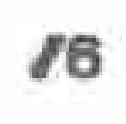18
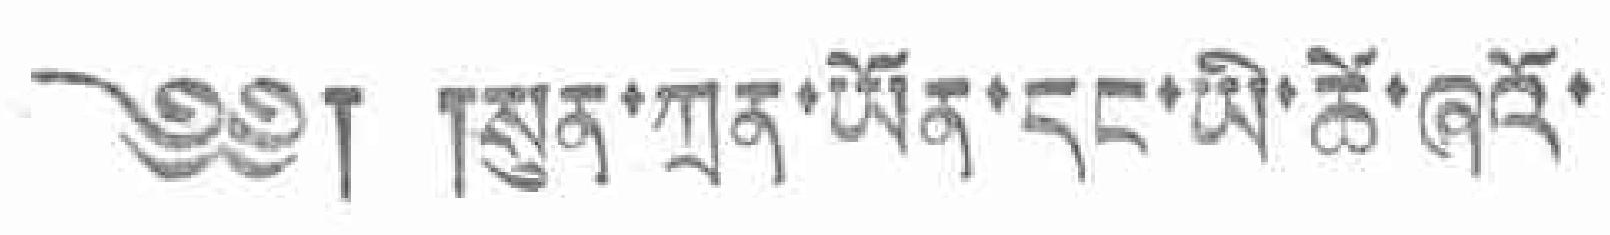༄༅། །སུན་ཀྲན་ཡོན་དང་ཡི་ཚེ་ཞའོ་
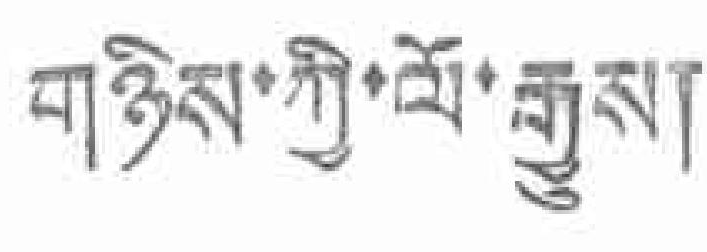གཉིས་ཀྱི་ལོ་རྒྱུས།
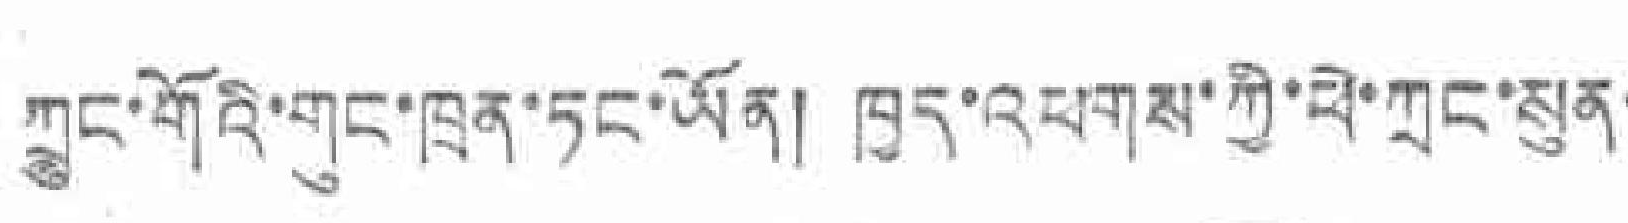ཀྲུང་གོའི་གུང་ཁྲན་ཏང་ཡོན། ཁྱད་འཕགས་ཀྱི་ཕེ་ཀྲང་སུན་
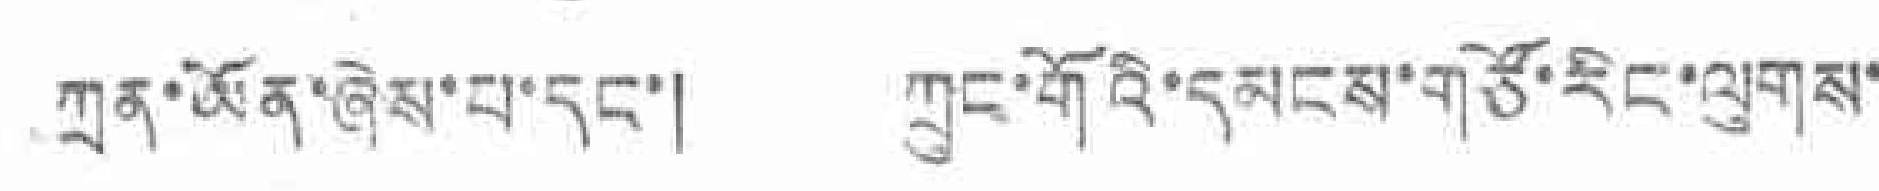ཀྲན་ཡོན་ཞེས་པ་དང་། ཀྲུང་གོའི་དམངས་གཙོ་རིང་ལུགས་
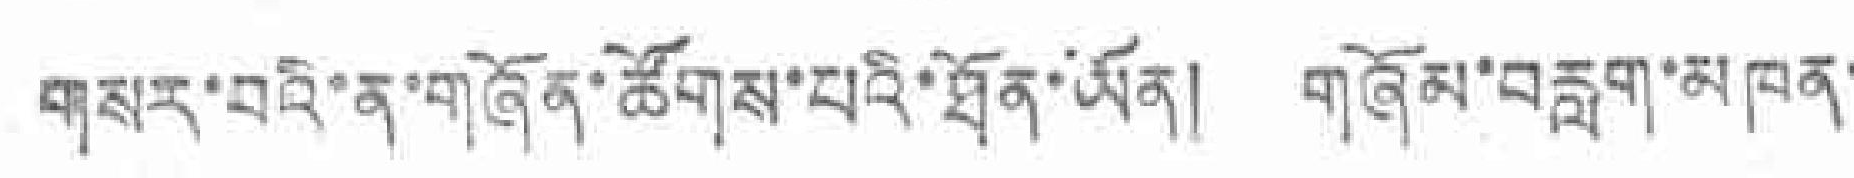གསར་བའི་ན་གཞོན་ཚོགས་པའི་ཐོན་ཡོན། གཞོམ་བརླག་མཁན་
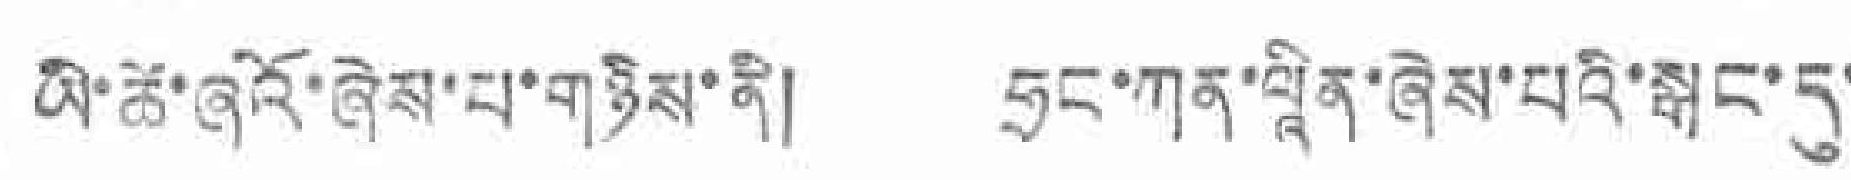ཡི་ཚེ་མའོ་ཞེས་པ་གཉིས་ནི། ཧྲང་ཀན་ལཱིན་ཞེས་པའི་སྒང་དུ་
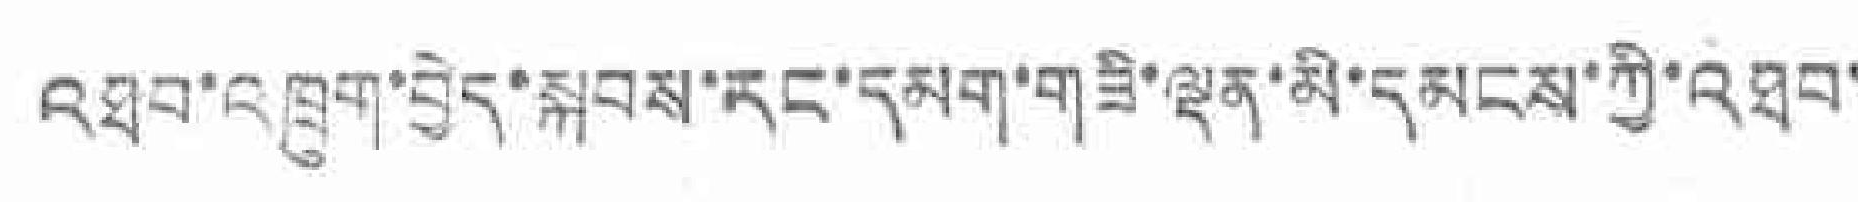འཐབ་འཁྲུག་བྱེད་སྐབས་དང་དམག་གཟི་ལྡན་མི་དམངས་ཀྱི་འཐབ་
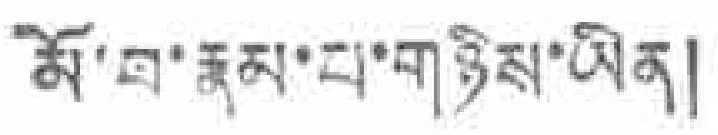མོ་བ་རྣམ་པ་གཉིས་ཡིན།
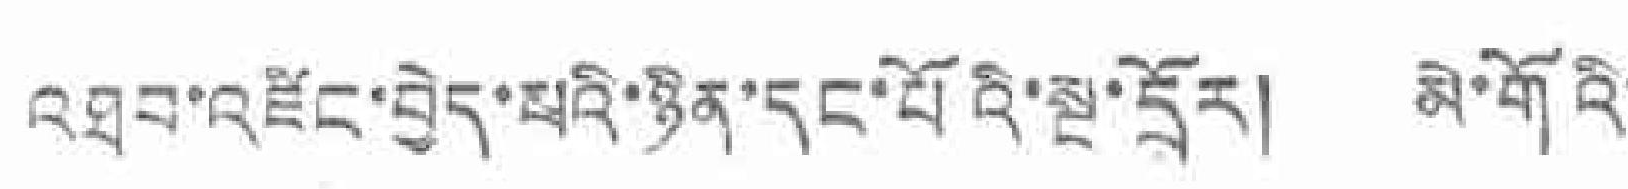འཐབ་འཛིང་བྱེད་པའི་ཉིན་དང་པོའི་སྔ་དྲོར། མེ་གོའི་
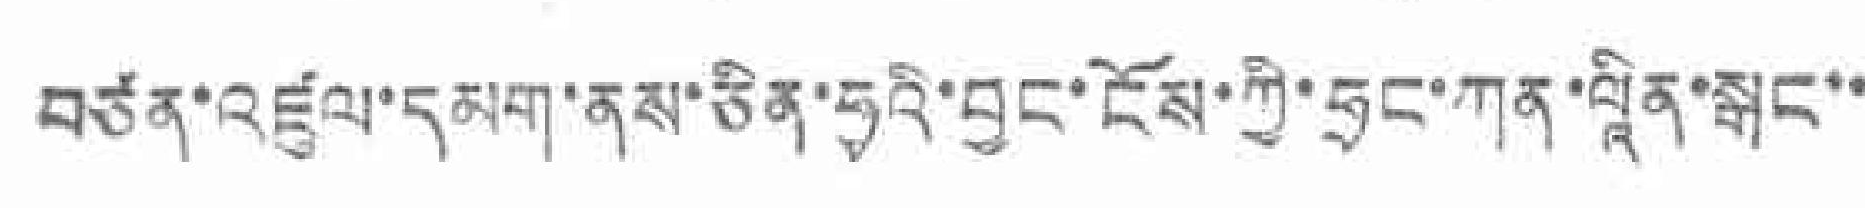བཙན་འཛུལ་དམག་ནས་ཅིན་ཧྭའི་བྱང་ངོས་ཀྱི་ཧྲང་ཀུན་ལཱིན་སྒང་་
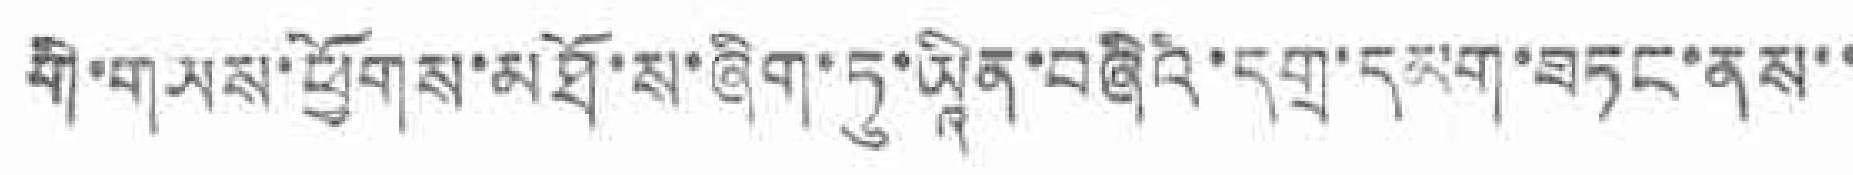རྒྱ་གཡས་ཕྱོགས་མཐོ་ས་ཞིག་ཏུ་ཡཱིན་བཞིའི་དགྲ་དམག་བཏང་ནས་་
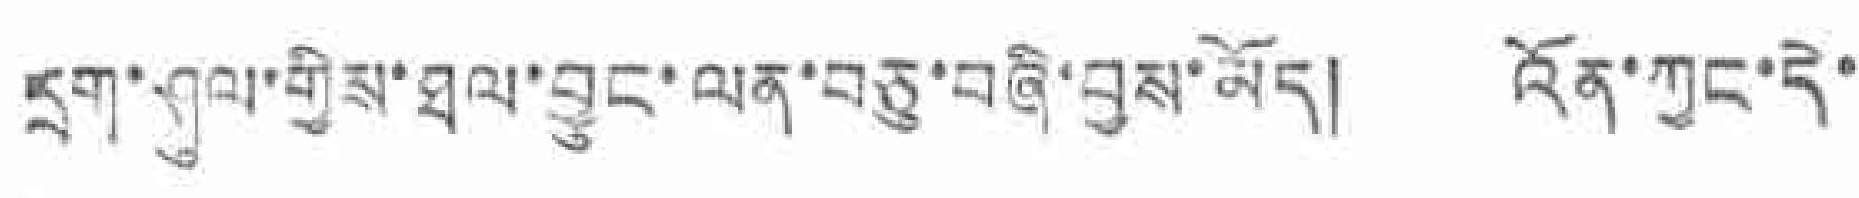དྲག་ཤུལ་གྱིས་ཐལ་བྱུང་ལན་བཅུ་བཞི་བྱས་མོད། འོན་ཀྱང་དེ་
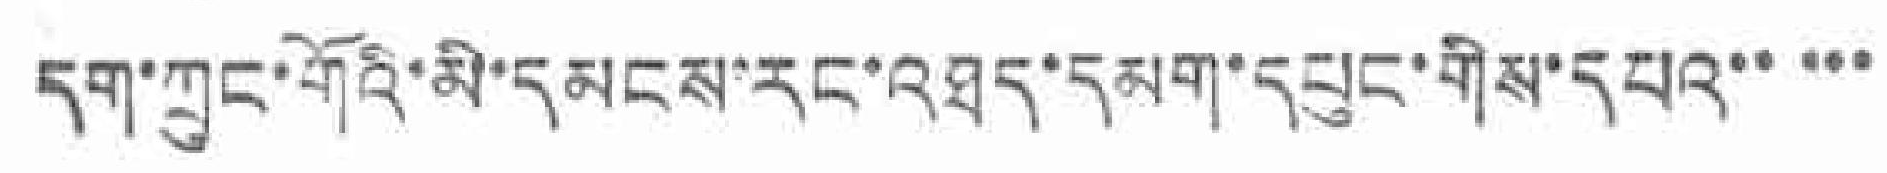དག་ཀྲུང་གོའི་མི་དམངས་རང་འཐད་དམག་དཔུང་གིས་དཔའ་་་་་
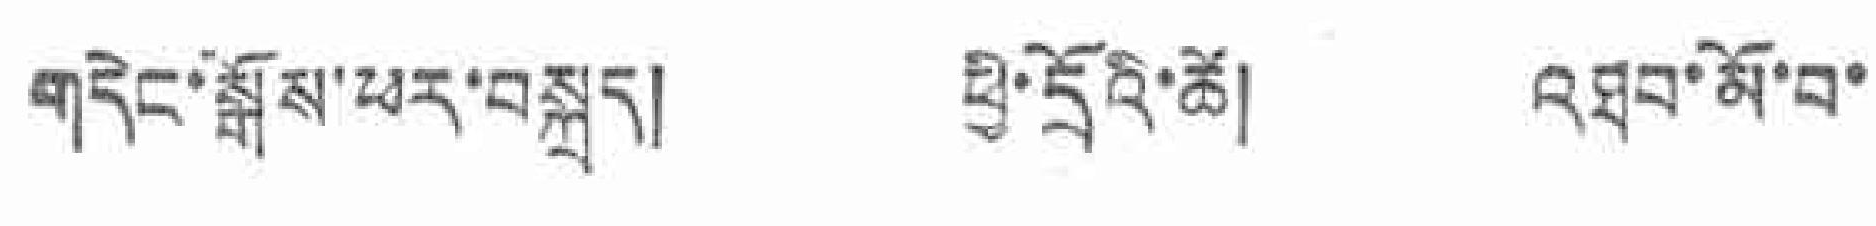གདེང་སྒོས་ཕར་བསྐྲད། ཕྱི་དྲོའི་ཚེ། འཐབ་མོ་བ་
